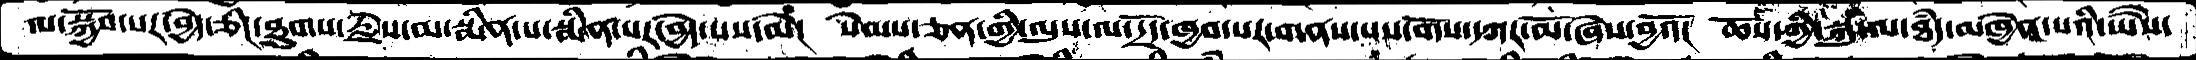ལ་སྐྱོབ་པར་བྱེད་ཅིང་ཐུགས་རྗེས་མ་་སྨིན་པ་སྨིན་པར་བྱེད་པས་མེ།  སེམས་ཅན་གྱི་ལུས་ལ་དྲོད་ཁྱབ་པར་གནས་པས་གོས་དཀར་མོ་ཞེས་བྱའོ།  ཆོས་ཀྱི་སྐུ་ལ་ཐཾད་མཁྱེན་པའི་ཡཻས་
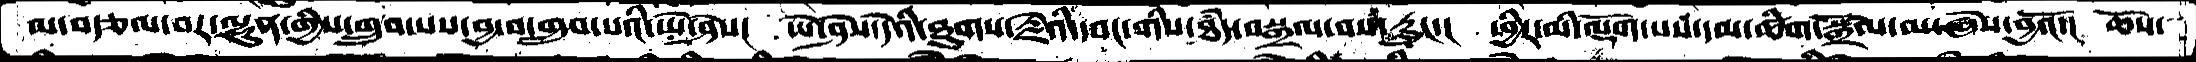མ་བརྩལ་བར་ལྷུན་གྱིས་གྲུབ་པས་བྱ་བ་གྲུབ་པའི་ཡེ་ཤེས།  ཡེ་ཤེས་དེའི་ཐུགས་རྗེའི་དབང་གིས་ཐཾད་བསྒྲལ་བས་རླུང་།  ཕྱིར་མི་ལྡོག་པས་དམ་ཚིག་སྒྲོལ་མ་ཞེས་བྱའོ་།  ཆོས་
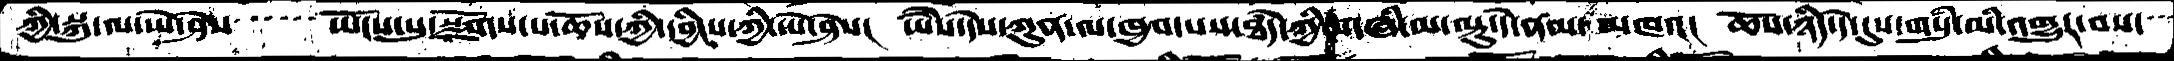ཀྱི་སྐུ་ལ་ཡེ་ཤེས་་་་་ཡོངས་སུ་སྫོགས་པ་ཆོས་ཀྱི་དབྱིངས་ཀྱི་ཡེ་ཤེས།  ཡཻས་དེས་ཀུན་ལ་ཁྱབ་པས་ཐཾད་ཀྱི་གཞི་མ་ལྟུ་དེ་ནམ་མཁའ།  ཆོས་ཉིད་དེ་དུས་གསུཾ་མི་འགྱུར་བས་་་
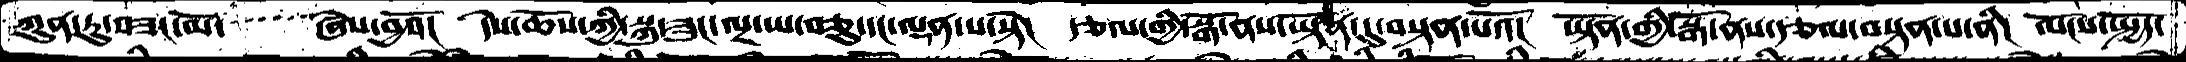ཀུན་ཏུ་བཟང་མོ་   ཞེས་བྱའོ།  དེས་ཆོས་ཀྱི་སྐུ་ཟུང་ལྔ་ཡ་བཅུ་དང་ལྡན་པ་སྟེ།  རྩལ་གྱི་སྒོ་ནས་ཡྟོན་དུ་བསྟན་པའོ།  ཡྟོན་གྱི་སྒོ་ནས་རྩལ་བསྟན་པ་ནི།  ལོངས་སྤྱོད་
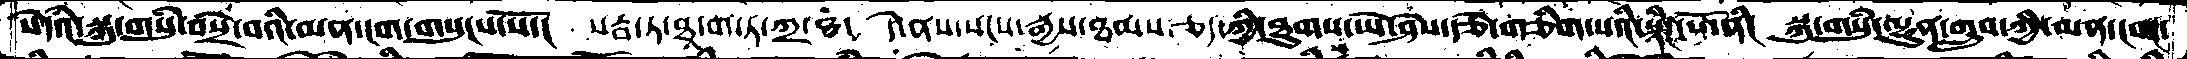སེཾདའ་སྐུ་གསུཾ་བསྲེ་བའི་མན་ངག་གསུངས་སོ་།  སརྦ་ཏ་ཐཱ་ག་ཏ་ཀྲ་ཋ།  དེ་ནས་སངས་རྒྱས་ཐམས་ཅད་ཀྱི་ཐུགས་ཡེ་ཤེས་རྩེ་གཅིག་པའིི་སྙིང་པོ་ནི།  སྐུ་གསུཾ་ལྷུན་གྲུབ་ཀྱི་མན་ངག་
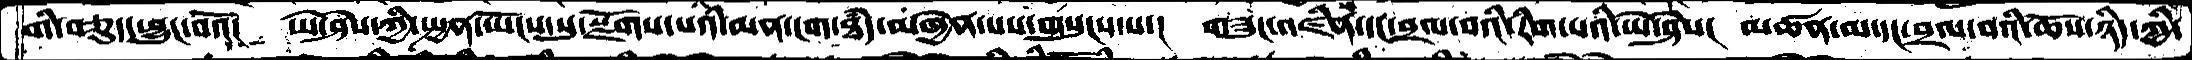གི་བཅུད་ཕྱུང་བའོ།  ཡེ་ཤེས་ཀྱི་སྤྱན་ཡོངས་སུ་སྫོགས་པའི་མན་ངག་ཐཾད་མཁྱེན་པས་གསུངས་པ་།  གཟུང་འཛིན་དང་བྲལ་བའི་རིག་པའི་ཡེ་ཤེས་།  མཚན་མ་དང་བྲལ་བའི་ཆོས་ཉིད་ཀྱི་
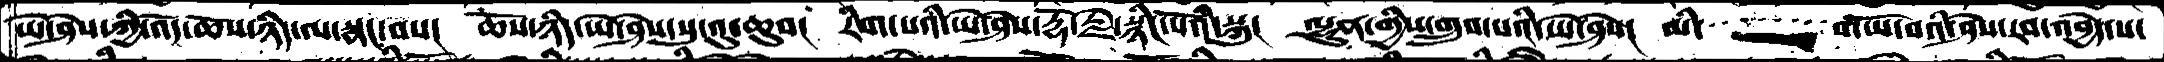ཡེ་ཤེས་ཀྱི་འོད་ཆོས་ཉིད་ལ་སྣང་བས།  ཆོས་ཉིད་ཡེ་ཤེས་སུ་འུ་ཆུབ།  རིག་པའི་ཡེ་ཤེས་རྡོ་རྗེ་སྙིང་པོའི་སྐུ།  ལྷུན་གྱིས་གྲུབ་པའི་ཡེ་ཤེས།  མི་  གཡོ་བའི་ཤེས་རབ་འབྱེད་པ་
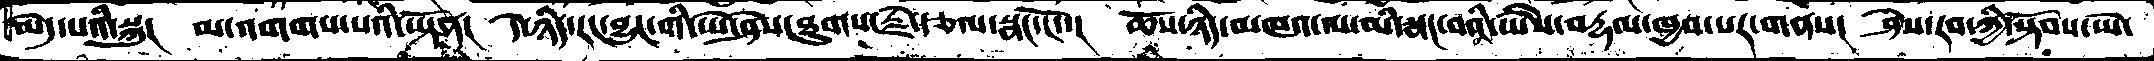མེད་པའི་སྐུ།  མ་འགགས་པའི་ཡྟོན།  དེ་ཉིད་རང་བྱུང་གི་ཡེ་ཤེས་ཐུགས་རྗེ་རྩལ་སྣང་ངོ་་།  ཆོས་ཉིད་མཁའ་ལ་མི་སྣང་བའི་ཡཻས་བརྡལ་ཁྱབ་པར་གནས།  ཤེས་རབ་ཀྱི་སྟོབས་ཡེ་
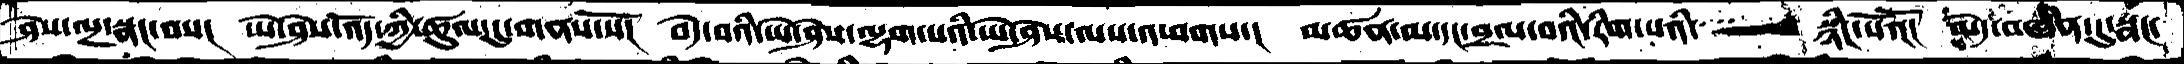ཤེས་ལྔ་སྣང་བས།  ཡེ་ཤེས་འོད་ཀྱི་ཚུལ་དུ་གནས་སོ།  བདེ་བའི་ཡེ་ཤེས་ལྷག་པའི་ཡེ་ཤེས་ལས་འཕགས་།  མཚན་མ་དང་བྲལ་བའི་རིག་པའི་  སྙིང་པའོ།  མེད་བཞིན་དུ་སྣང་
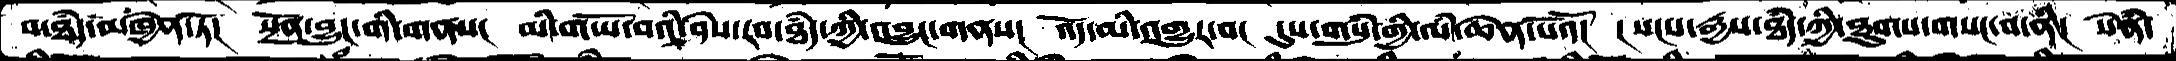བ་ཐཾད་མཁྱེན་ཏེ།  སྔོན་བྱུང་གི་གནས།  མི་གཡོ་བའི་ཤེས་རབ་ཐཾད་ཀྱི་འབྱུང་གནས།  འོད་མི་འགྱུར་བ།  དུས་གསུཾ་གྱི་ལཾ་ཆེན་པོའོ། ། སངས་རྒྱས་ཐཾད་ཀྱི་ཐུགས་གསང་བ་ནི།  སེཾན་
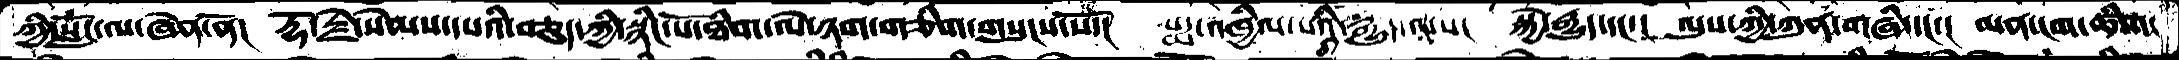ཀྱི་སློང་ལ་ཞེན་ནོ།  རྡོ་རྗེ་སེམས་དཔའི་བཅུད་ཀྱི་སྙིང་པོ་ཐིག་ལེ་ཉག་གཅིག་གསུངས་སོ་།  པདྨ་འཁྱིལ་པའི་རྒྱུད་ལས།  སྐྱེ་རྒྱུད་དང་།  ལུས་ཀྱི་ཀུན་གཞི་དང་།  མན་ངག་ཚིག་
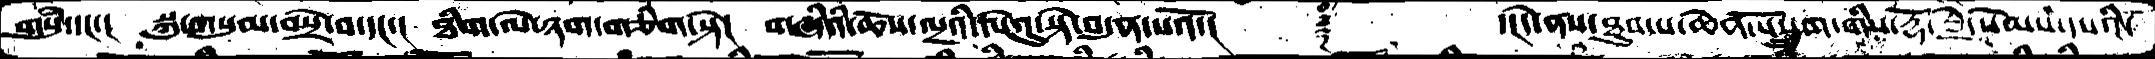གསུཾ་དང་།  སྐུ་གསུམ་བསྲེ་བ་དང་། ཐིག་ལེ་ཉག་གཅིག་སྟེ། གཞིའི་ཆོས་ལྔའི་ལེའུ་སྟེ་བདུན་པའོ་།   ༈   ་།དེ་ནས་ཐུབ་པ་ཆེན་པོ་དྲུག་གིས་རྡོ་རྗེ་སེམས་དཔའི་
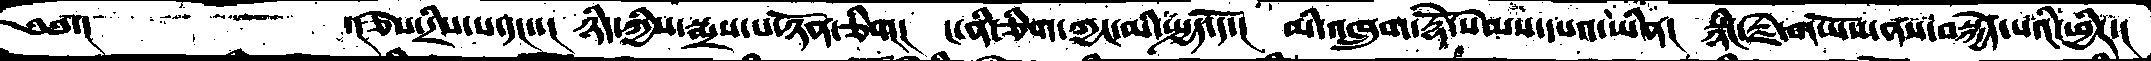༄༅་།      ་།ཅེས་དྲིས་པ་དང་་།  ཉིད་ཀྱིས་སྨྲས་པ་ཉོན་ཅིག།  ང་ནི་ཅིག་ཀྱང་མི་སྤྱད་དོ་།  མི་འཁྲུག་རྡོེ་སེམས་དཔའ་ཡིན།  སྙིང་རྗེ་གཡོས་ནས་བསྐྱེད་པའི་ཕྱིར་།
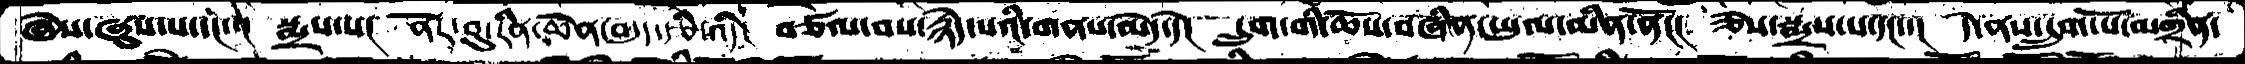ཞེས་ཞུས་པ་དང་་།  སྨྲས་པ།  ནོར་བུ་རིན་ཆེན་བདུད་རྩི་འདི།  བཙལ་བས་རྙེད་པའི་གནས་མེད་དེ།  དྲུག་གི་ཆོས་བཞིན་ཡུལ་མིན་ནོ།།།  ཅེས་སྨྲས་པ་དང་་།  དེ་ནས་དྲུག་པོ་མགྲིན་
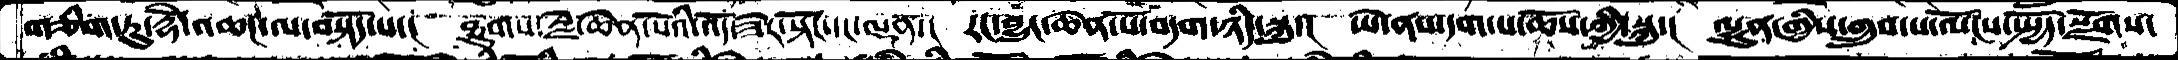གཅིག་ཏུ་རྡོེ་འཆང་ལ་བསྟོད་པ་།  ཐུགས་རྗེ་ཆེན་པོའི་འོད་ཟེར་སྟོང་དང་ལྡན་།  རང་བྱུང་ཆེན་པོ་བདག་ཉིད་སྐུ་།  ཡེ་ནས་དག་པ་ཆོས་ཀྱི་སྐུ་།  ལྷུན་གྱིས་གྲུབ་པ་ལོངས་སྤྱོད་སྫོགས་
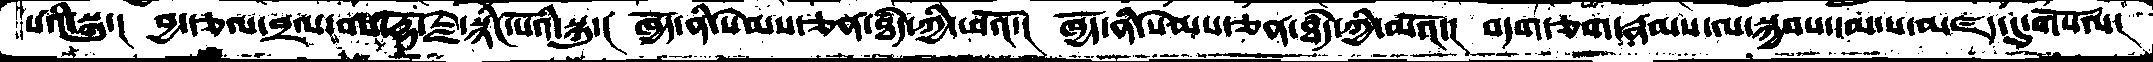པའི་སྐུ་།  བྱ་རྩལ་བྲལ་བས་རྡོ་རྗེ་སྙིང་པོའི་སྐུ་།  ཁྱོད་ནི་སེམས་ཅན་ཐདཾ་ཀྱི་ཕའོ་།  ཁྱོད་ནི་སེམས་ཅན་ཐདཾ་ཀྱི་མའོ་།  བདག་ཅག་རྣམས་ལ་སྐྱབས་དམ་པ་མཛད་དུ་གསོལ།
